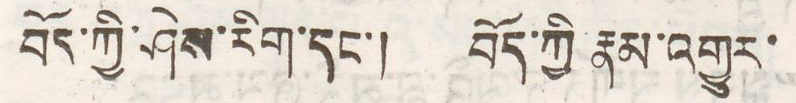བོད་ཀྱི་ཤེས་རིག་དང་། བོད་ཀྱི རྣམ་འགྱུར་
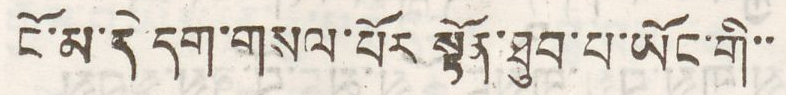ངོ་མ་དེ་དག་གསལ་པོར སྟོན་ཐུབ་པ་ཡོང་གི་་
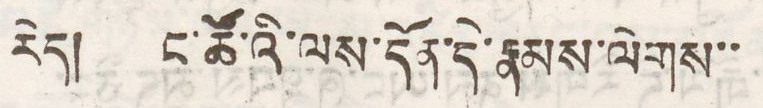རེད། ང་ཚོའི་ལས་དོན་དེ་རྣམས་ལེགས་་
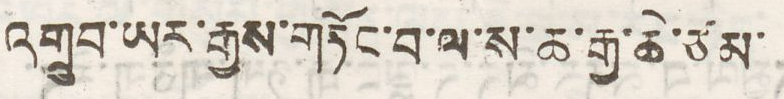འགྲུབ་ཡར་རྒྱས་གཏོང་བ་ལ་ས་ཆ་རྒྱ་ཆེ་ཙམ་
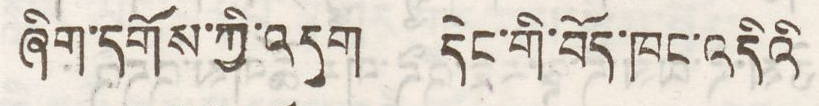ཞིག་དགོས་ཀྱི་འདུག དེང་གི་བོད་ཁང་འདིའི
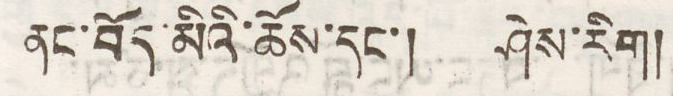ནང་བོད་མིའི་ཆོས་དང་། ཤེས་རིག།
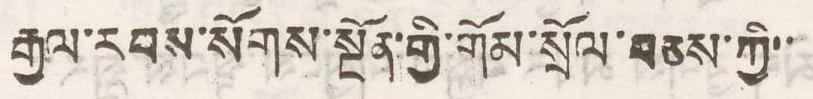རྒྱལ་རབས་སོགས་སྔོན་གྱི་གོམ་སྲོལ་བཅས་ཀྱི་་
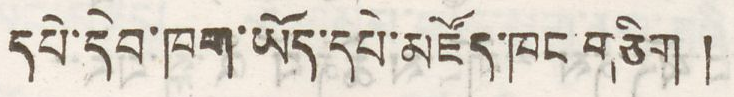དཔེ་དེབ་ཁག་ཡོད་དཔེ་མཛོད་ཁང གཅིག།
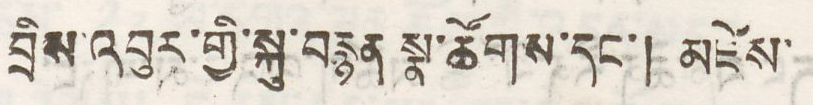བྲིས་འབུར་གྱི་སྐུ་བརྙན སྣ་ཚོགས་དང་། མཛེས་
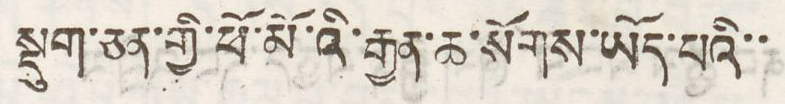སྡུག་ཅན་གྱི་ཕོ་མོ་འི་རྒྱན་ཆ་སོགས་ཡོད་པའི་་
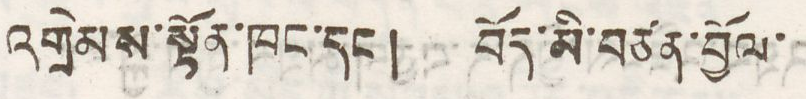འགྲེམས་སྟོན་ཁང་དང ། བོད་མི་བཙན་བྱོལ་
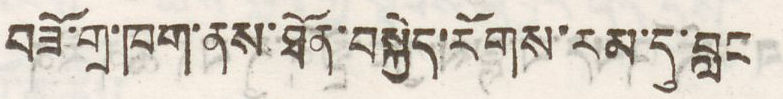བཟོ་གྲ་ཁག་ནས་ཐོན་བསྐྱེད་རོགས་རམ་དུ་བླང
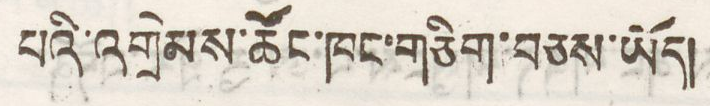པའི་འགྲེམས་ཚོང་ཁང་གཅིག་བཅས་ཡོད།
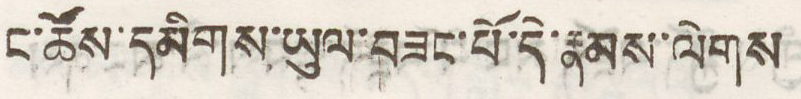ང་ཚོས་དམིགས་ཡུལ་བཟང་པོ་དེ་རྣམས་ལེགས
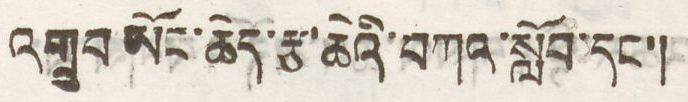འགྲུབ ཡོང་ཆེད་རྩ་ཆེའི་བཀའ་སློབ་དང་།
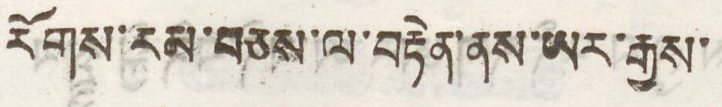རོགས་རམ་བཅས་ལ་བརྟེན་ནས་ཡར་རྒྱས་
